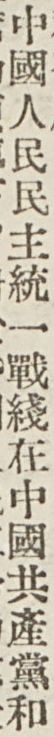中國人民民主統一戰綫在中國共產黨和
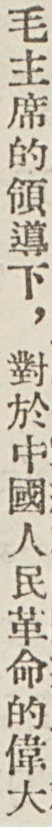毛主席的領導下，對於中國人民革命的偉大
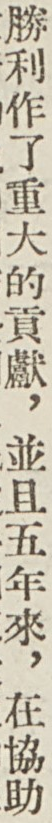勝利作了重大的貢獻，並且五年來，在協助
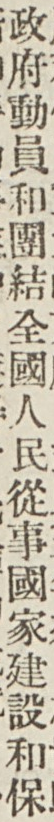政府動員和團結全國人民從事國家建設和保
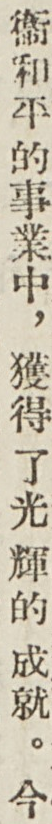衛和平的事業中，獲得了光 輝 的 成就。今
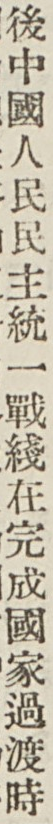後中國人民民主統一戰綫在完成國家過渡時
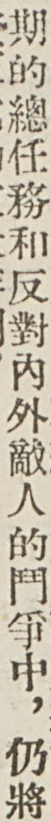期的總任務和反對內外敵人的鬥爭中，仍將
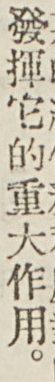發揮它的重大作用。
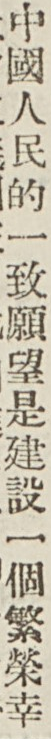中國人民的一致願望是建設一個繁榮幸
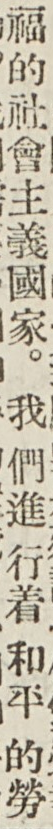福的社會主義國家。我們進行着 和平 的勞
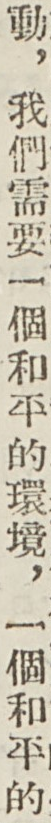動，我們需要一個和平的環境，一個和平的
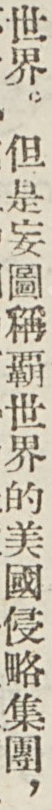世界。但是妄圖稱霸世界的美國侵略集團，
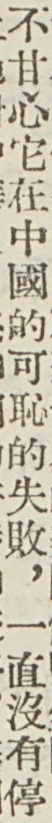不甘心它在中國的可恥的失敗，一直沒有停
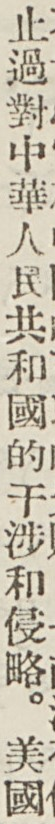止過對中華人民共和國的干涉和侵略。美國
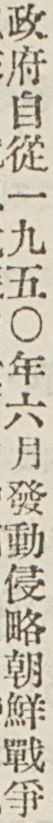政府自從一九五〇年六月發動侵略朝鮮戰爭
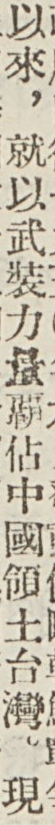以來，就以武裝力量霸佔中國領土台灣。現
